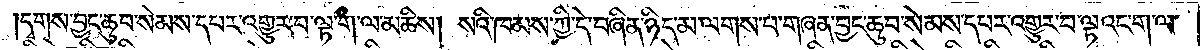དྭགས་བྱང་ཆུབ་སེམས་དཔར་འགྱུར་བ་ལྟ་ག་ལ་མཆིས། སའི་ཁམས་ཀྱི་དེ་བཞིན་ཉིད་མ་ལགས་པ་གཞན་བྱང་ཆུབ་སེམས་དཔར་འགྱུར་བ་ལྟའང་ག་ལ་
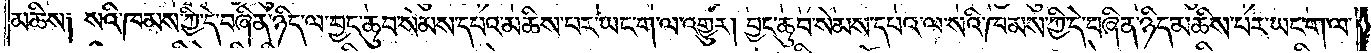མཆིས༑ སའི་ཁམས་ཀྱི་དེ་བཞིན་ཉིད་ལ་བྱང་ཆུབ་སེམས་དཔའ་མཆིས་པར་ཡང་ག་ལ་འགྱུར། བྱང་ཆུབ་སེམས་དཔའ་ལ་སའི་ཁམས་ཀྱི་དེ་བཞིན་ཉིད་མཆིས་པར་ཡང་ག་ལ་
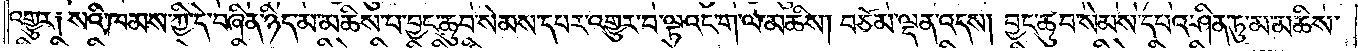འགྱུར༑ སའི་ཁམས་ཀྱི་དེ་བཞིན་ཉིད་མ་མཆིས་པ་བྱང་ཆུབ་སེམས་དཔར་འགྱུར་བ་ལྟའང་ག་ལ་མཆིས། བཅོམ་ལྡན་འདས། བྱང་ཆུབ་སེམས་དཔའ་ཤིན་ཏུ་མ་མཆིས་
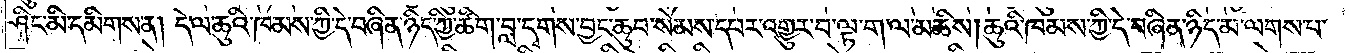ཤིང་མི་དམིགས་ན། དེ་ལ་ཆུའི་ཁམས་ཀྱི་དེ་བཞིན་ཉིད་ཀྱི་ཚིག་བླ་དྭགས་བྱང་ཆུབ་སེམས་དཔར་འགྱུར་བ་ལྟ་ག་ལ་མཆིས། ཆུའི་ཁམས་ཀྱི་དེ་བཞིན་ཉིད་མ་ལགས་པ་
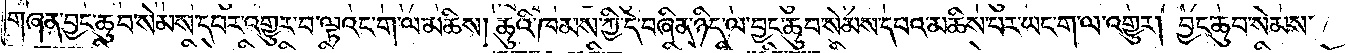གཞན་བྱང་ཆུབ་སེམས་དཔར་འགྱུར་བ་ལྟའང་ག་ལ་མཆིས། ཆུའི་ཁམས་ཀྱི་དེ་བཞིན་ཉིད་ལ་བྱང་ཆུབ་སེམས་དཔའ་མཆིས་པར་ཡང་ག་ལ་འགྱུར། བྱང་ཆུབ་སེམས་
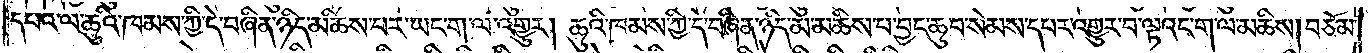དཔའ་ལ་ཆུའི་ཁམས་ཀྱི་དེ་བཞིན་ཉིད་མཆིས་པར་ཡང་ག་ལ་འགྱུར། ཆུའི་ཁམས་ཀྱི་དེ་བཞིན་ཉིད་མ་མཆིས་པ་བྱང་ཆུབ་སེམས་དཔར་འགྱུར་བ་ལྟའང་ག་ལ་མཆིས། བཅོམ་
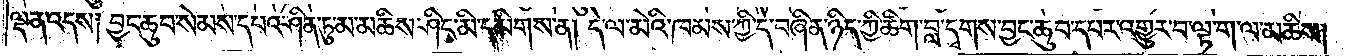ལྡན་འདས། བྱང་ཆུབ་སེམས་དཔའ་ཤིན་ཏུ་མ་མཆིས་ཤིང་མི་དམིགས་ན། དེ་ལ་མེའི་ཁམས་ཀྱི་དེ་བཞིན་ཉིད་ཀྱི་ཚིག་བླ་དྭགས་བྱང་ཆུབ་དཔར་འགྱུར་བ་ལྟ་ག་ལ་མཆིས།
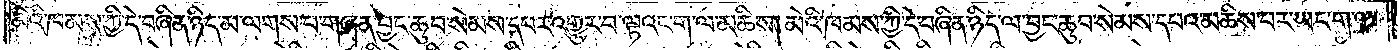མེའི་ཁམས་ཀྱི་དེ་བཞིན་ཉིད་མ་ལགས་པ་གཞན་བྱང་ཆུབ་སེམས་དཔར་འགྱུར་བ་ལྟའང་ག་ལ་མཆིས། མེའི་ཁམས་ཀྱི་དེ་བཞིན་ཉིད་ལ་བྱང་ཆུབ་སེམས་དཔའ་མཆིས་པར་ཡང་ག་ལ་
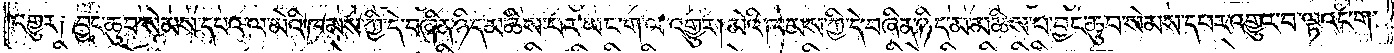འགྱུར༑ བྱང་ཆུབ་སེམས་དཔའ་ལ་མེའི་ཁམས་ཀྱི་དེ་བཞིན་ཉིད་མཆིས་པར་ཡང་ག་ལ་འགྱུར། མེའི་ཁམས་ཀྱི་དེ་བཞིན་ཉིད་མ་མཆིས་པ་བྱང་ཆུབ་སེམས་དཔར་འགྱུར་བ་ལྟའང་ག་
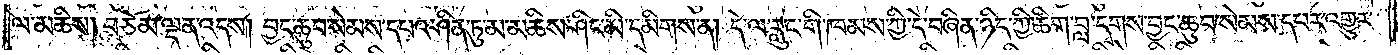ལ་མཆིས། བཅོམ་ལྡན་འདས། བྱང་ཆུབ་སེམས་དཔའ་ཤིན་ཏུ་མ་མཆིས་ཤིང་མི་དམིགས་ན། དེ་ལ་རླུང་གི་ཁམས་ཀྱི་དེ་བཞིན་ཉིད་ཀྱི་ཚིག་བླ་དྭགས་བྱང་ཆུབ་སེམས་དཔར་འགྱུར་
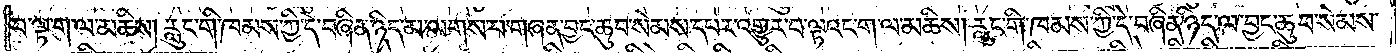བ་ལྟ་ག་ལ་མཆིས། རླུང་གི་ཁམས་ཀྱི་དེ་བཞིན་ཉིད་མ་ལགས་པ་གཞན་བྱང་ཆུབ་སེམས་དཔར་འགྱུར་བ་ལྟའང་ག་ལ་མཆིས། རླུང་གི་ཁམས་ཀྱི་དེ་བཞིན་ཉིད་ལ་བྱང་ཆུབ་སེམས་
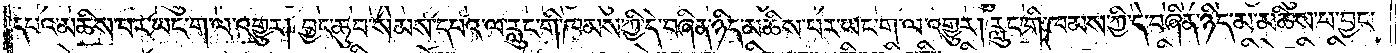དཔའ་མཆིས་པར་ཡང་ག་ལ་འགྱུར། བྱང་ཆུབ་སེམས་དཔའ་ལ་རླུང་གི་ཁམས་ཀྱི་དེ་བཞིན་ཉིད་མཆིས་པར་ཡང་ག་ལ་འགྱུར། རླུང་གི་ཁམས་ཀྱི་དེ་བཞིན་ཉིད་མ་མཆིས་པ་བྱང་
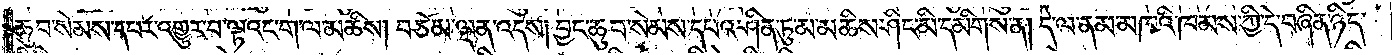ཆུབ་སེམས་དཔར་འགྱུར་བ་ལྟའང་ག་ལ་མཆིས། བཅོམ་ལྡན་འདས། བྱང་ཆུབ་སེམས་དཔའ་ཤིན་ཏུ་མ་མཆིས་ཤིང་མི་དམིགས་ན། དེ་ལ་ནམ་མཁའི་ཁམས་ཀྱི་དེ་བཞིན་ཉིད་
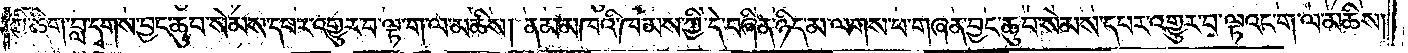ཀྱི་ཚིག་བླ་དྭགས་བྱང་ཆུབ་སེམས་དཔར་འགྱུར་བ་ལྟ་ག་ལ་མཆིས། ནམ་མཁའི་ཁམས་ཀྱི་དེ་བཞིན་ཉིད་མ་ལགས་པ་གཞན་བྱང་ཆུབ་སེམས་དཔར་འགྱུར་བ་ལྟའང་ག་ལ་མཆིས།
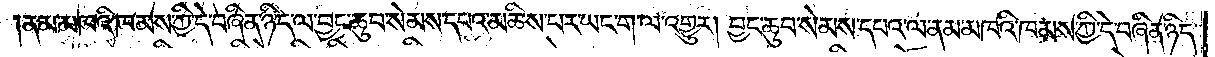ནམ་མཁའི་ཁམས་ཀྱི་དེ་བཞིན་ཉིད་ལ་བྱང་ཆུབ་སེམས་དཔའ་མཆིས་པར་ཡང་ག་ལ་འགྱུར། བྱང་ཆུབ་སེམས་དཔའ་ལ་ནམ་མཁའི་ཁམས་ཀྱི་དེ་བཞིན་ཉིད་
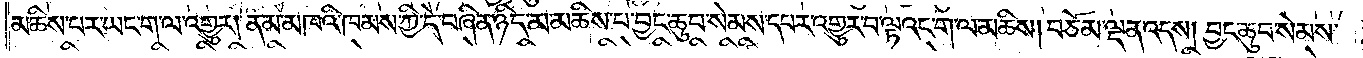མཆིས་པར་ཡང་ག་ལ་འགྱུར། ནམ་མཁའི་ཁམས་ཀྱི་དེ་བཞིན་ཉིད་མ་མཆིས་པ་བྱང་ཆུབ་སེམས་དཔར་འགྱུར་བ་ལྟའང་ག་ལ་མཆིས། བཅོམ་ལྡན་འདས། བྱང་ཆུབ་སེམས་
